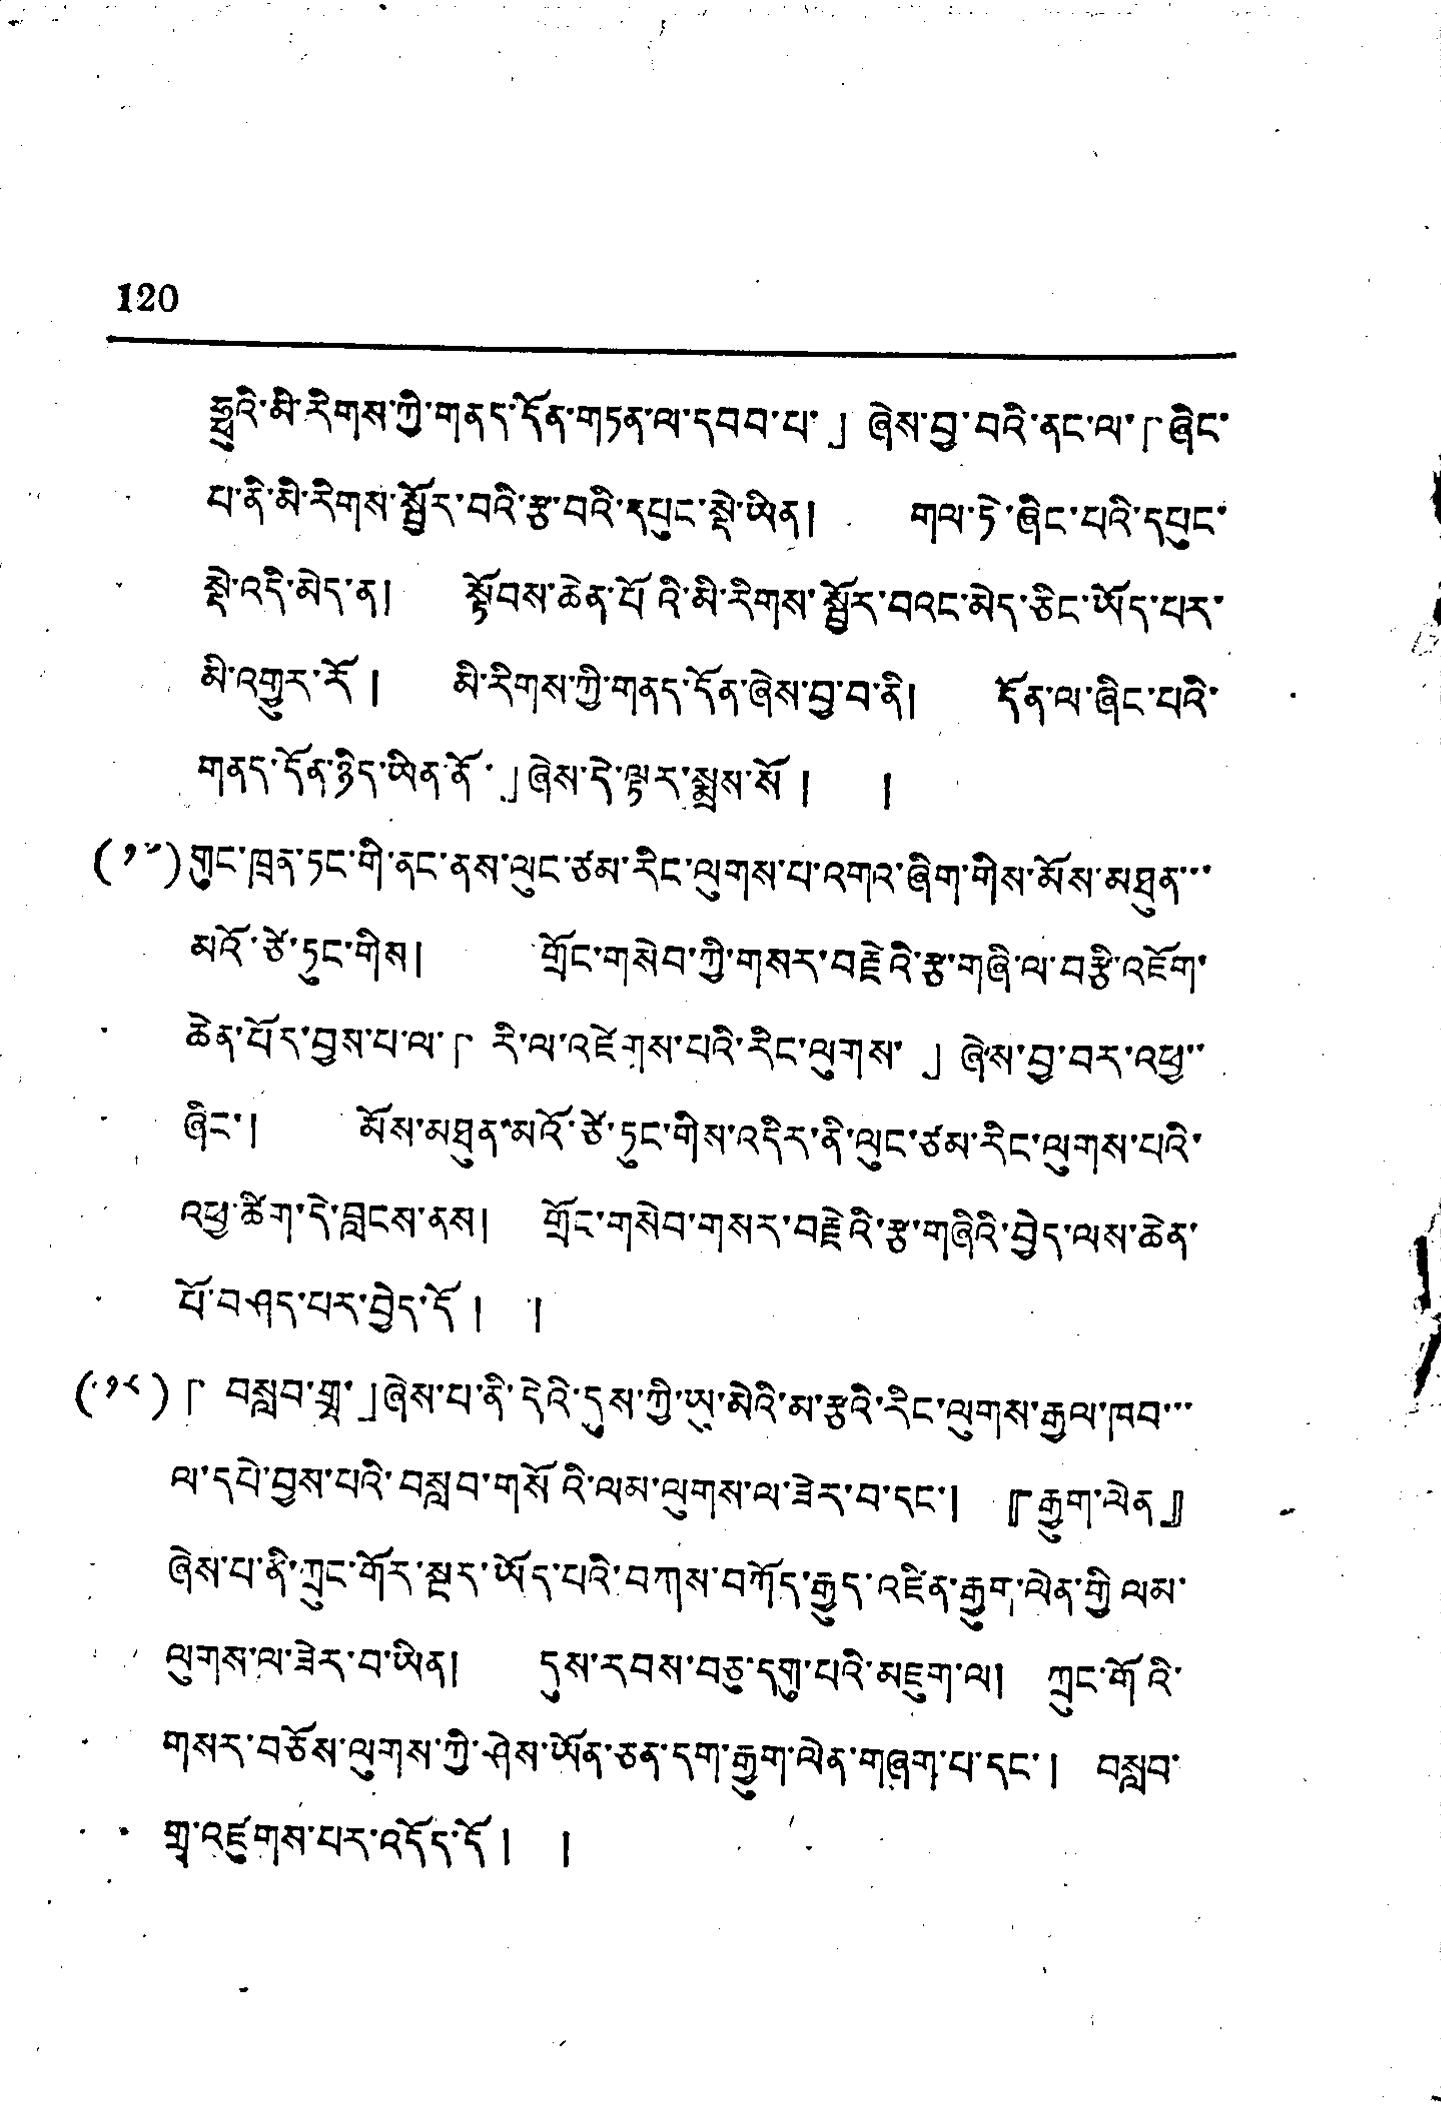120
ཧྥུའི་མི་རིགས་ཀྱི་གནད་དོན་གཏན་ལ་དབབ་པ་」ཞེས་བྱ་བའི་ནང་ལ་「ཞིང་
པ་ནི་མི་རིགས་སྦྱོར་བའི་རྩ་བའི་དཔུང་སྡེ་ཡིན། གལ་ཏེ་ཞིང་པའི་དཔུང་
སྡེ་འདི་མེད་ན། སྟོབས་ཆེན་པོའི་མི་རིགས་སྦྱོར་བའང་མེད་ཅིང་ཡོད་པར་
མི་འགྱུར་རོ། མི་རིགས་ཀྱི་གནད་དོན་ཞེས་བྱ་བ་ནི། དོན་ལ་ཞིང་པའི་
གནད་དོན་ཉིད་ཡིན་ནོ་」ཞེས་དེ་ལྟར་སྨྲས་སོ། །
(༡༧)གུང་ཁྲན་ཏང་གི་ནང་ནས་ལུང་ཙམ་རིང་ལུགས་པ་འགའ་ཞིག་གིས་མོས་མཐུན་་་
མའོ་ཙེ་ཏུང་གིས། གྲོང་གསེབ་ཀྱི་གསར་བརྗེའི་རྩ་གཞི་ལ་བརྩི་འཇོག་
ཆེན་པོར་བྱས་བ་ལ་「རི་ལ་འཛེགས་པའི་རིང་ལུགས་」ཞེས་བྱ་བར་འཕྱ་་
ཞིང་། མོས་མཐུན་མའོ་ཙེ་ཏུང་གིས་འདིར་ནི་ལུང་ཙམ་རིང་ལུགས་པའི་
འཕྱ་ཚིག་དེ་བླངས་ནས། གྲོང་གསེབ་གསར་བརྗེའི་རྩ་གཞིའི་བྱེད་ལས་ཆེན་
པོ་བཤད་པར་བྱེད་དོ། །
(༡༨)「བསླབ་གྲྭ་」ཞེས་པ་ནི་དེའི་དུས་ཀྱི་ཡུ་མེའི་མ་རྩའི་རིང་ལུགས་རྒྱལ་ཁབ་་་
ལ་དཔེ་བྱས་པའི་བསླབ་གསོའི་ལམ་ལུགས་ལ་ཟེར་བ་དནག་། 『རྒྱུག་ལེན』
ཞེས་པ་ནི་ཀྲུང་གོར་སྔར་ཡོད་པའི་བཀས་བཀོད་རྒྱུད་འཛིན་རྒྱུག་ལེན་གྱི་ལམ་
ལུགས་ལ་ཟེར་བ་ཡིན། དུས་རབས་བཅུ་དགུ་པའི་མཇུག་ལ། ཀྲུང་གོའི་
གསར་བཅོས་ལུགས་ཀྱི་ཤེས་ཡོན་ཅན་དག་རྒྱུག་ལེན་གཞག་པ་དང་། བསླབ་
གྲྭ་འཛུགས་པར་འདོད་དོ། །
